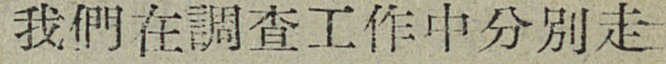我們在調查工作中分別走
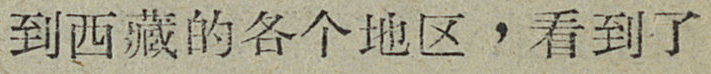到西藏的各个地区，看到了
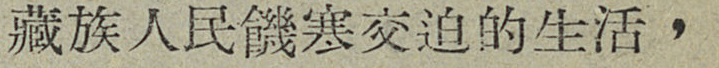藏族人民饑寒交迫的生活，
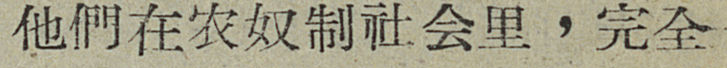他們在农奴制社会里，完全
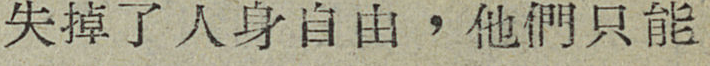失掉了人身自由，他們只能
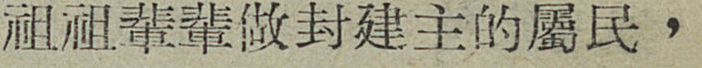祖祖輩輩做封建主的屬民，
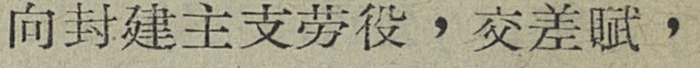向封建主支劳役，交差賦，
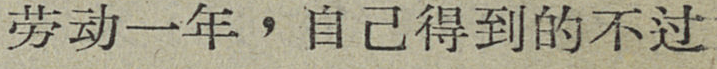劳动一年，自己得到的不过
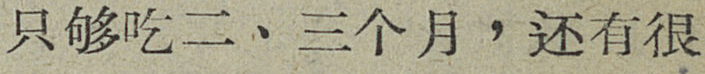足够吃二、三个月，还有很
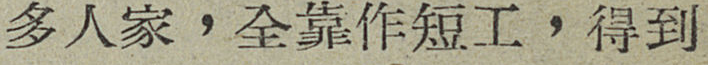多人家，全靠作短工，得到
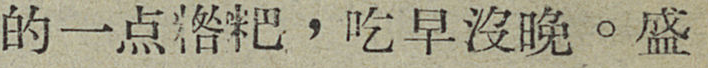的一点糌粑，吃早沒晚。盛
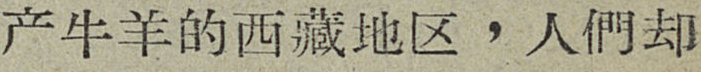产牛羊的西藏地区，人們却
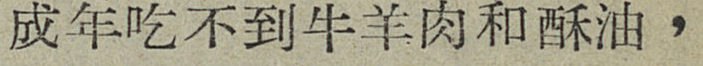成年吃不到牛羊肉和酥油，
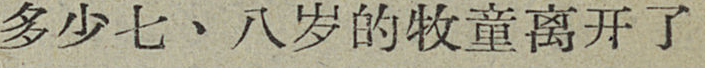多少七、八岁的牧童离开了
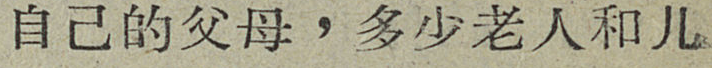自己的父母，多少老人和儿
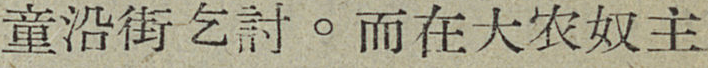童沿街乞討。而在大农奴主
